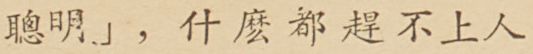聰明」，什麼都趕不上人
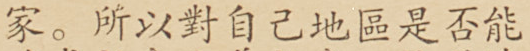家。所以對自己地區是否能
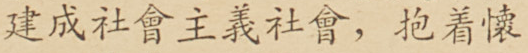建成社會主義社會，抱着懷
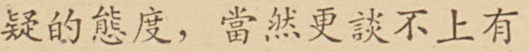疑的態度，當然更談不上有
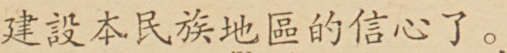建設本民族地區的信心了。
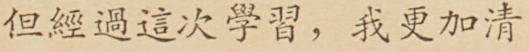但經過這次學習，我更加清
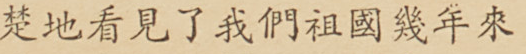楚地看見了我們祖國幾年來
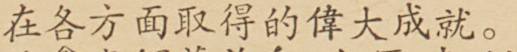在各方面取得的偉大成就。
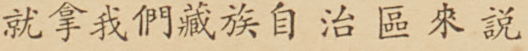就拿我們藏族自治區來說
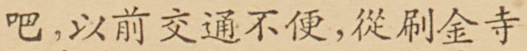吧，以前交通不便，從刷金寺
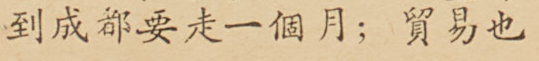到成都要走一個月；貿易也
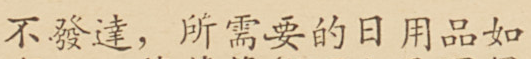不發達，所需要的日用品如
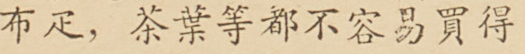布疋，茶葉等都不容易買得
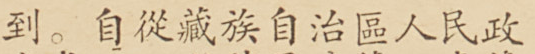到。自從藏族自治區人民政
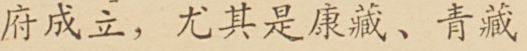府成立，尤其是康藏、青藏
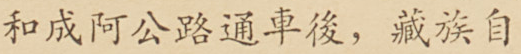和成阿公路通車後，藏族自
